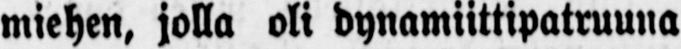miehen, jolla oli dynamiittipatruuna
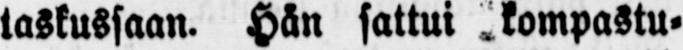taskussaan. Hän sattui kompastu-
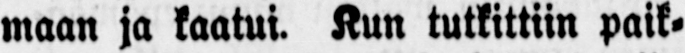maan ja kaatui. Kun tutkittiin paik-
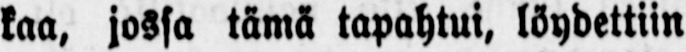kaa, jossa tämä tapahtui, löydettiin
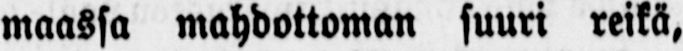maassa mahdottoman suuri reikä,
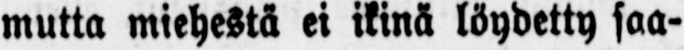mutta miehestä ei ikinä löydetty saa-
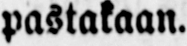pastakaan.
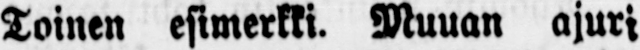Toinen esimerkki. Muuan ajuri
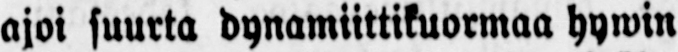ajoi suurta dynamiittikuormaa hywin
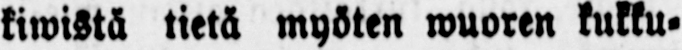kiwistä tietä myöten wuoren kukku-
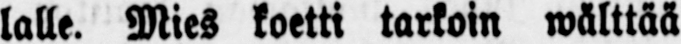lalle. Mies koetti tarkoin wälttää
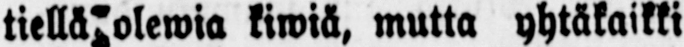tiellä olewia kiwiä, mutta yhtäkaikki
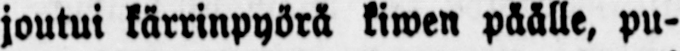joutui kärrinpyörä kiwen päälle, pu-
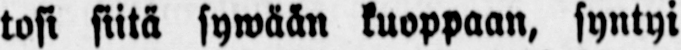tosi siitä sywään kuoppaan, syntyi
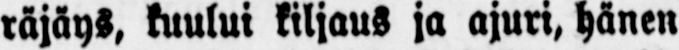räjäys, kuului kiljaus ja ajuri, hänen
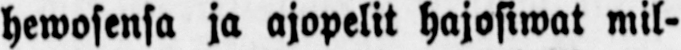hewosensa ja ajopelit hajosiwat mil-
